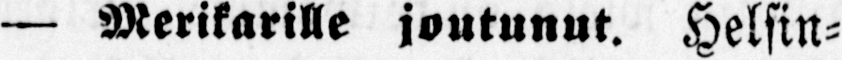— Merikarille joutunut. Helsin-
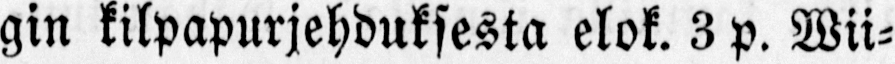gin kilpapurjehduksesta elok. 3 p. Wii-
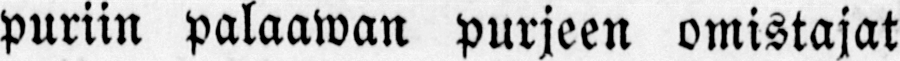puriin palaawan purjeen omistajat
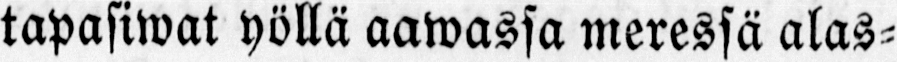tapasiwat yöllä aawassa meressä alas-
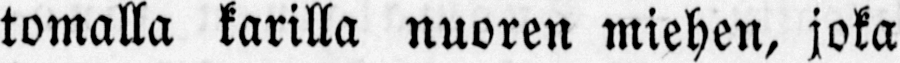tomalla karilla nuoren miehen, joka
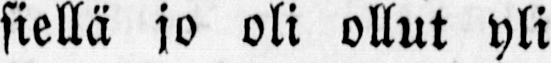siellä jo oli ollut yli wuorokauden.
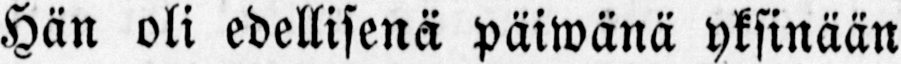Hän oli edellisenä päiwänä yksinään
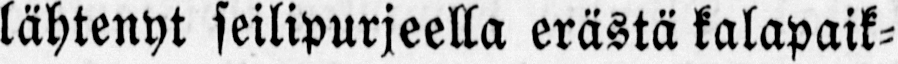lähtenyt seilipurjeella erästä kalapaik-
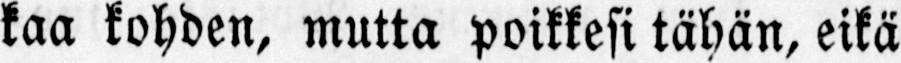kaa kohden, mutta poikkesi tähän, eikä
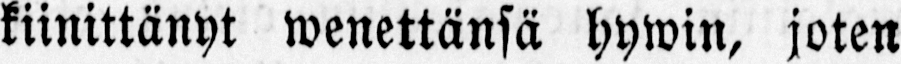kiinittänyt wenettänsä hywin, joten
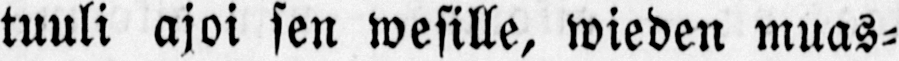tuuli ajoi sen wesille, wieden muas-
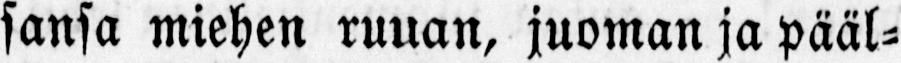sansa miehen ruuan, juoman ja pääl-
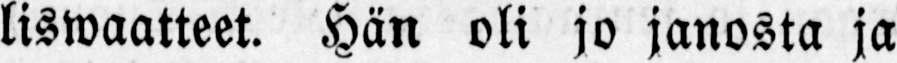liswaatteet. Hän oli jo janosta ja
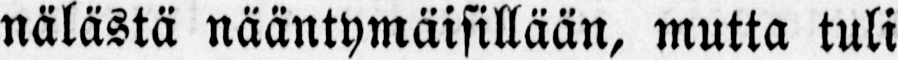nälästä nääntymäisillään, mutta tuli
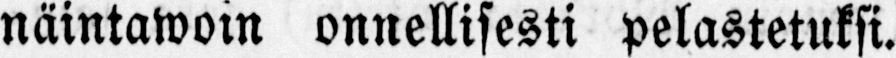näintawoin onnellisesti pelastetuksi.
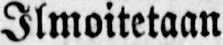Ilmoitetaan
